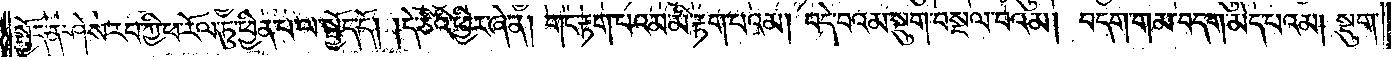སྤྱོད་ན་ཤེས་རབ་ཀྱི་ཕ་རོལ་ཏུ་ཕྱིན་པ་ལ་སྤྱོད་དོ། །དེ་ཅིའི་ཕྱིར་ཞེ་ན། གང་རྟག་པའམ་མི་རྟག་པའམ། བདེ་བའམ་སྡུག་བསྔལ་བའམ། བདག་གམ་བདག་མེད་པའམ། སྡུག་
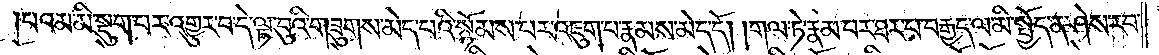པའམ་མི་སྡུག་པར་འགྱུར་བ་དེ་ལྟ་བུའི་གཟུགས་མེད་པའི་སྙོམས་པར་འཇུག་པ་རྣམས་མེད་དོ། །གལ་ཏེ་རྣམ་པར་ཐར་པ་བརྒྱད་ལ་མི་སྤྱོད་ན་ཤེས་རབ་
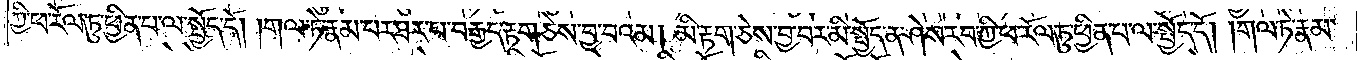ཀྱི་ཕ་རོལ་ཏུ་ཕྱིན་པ་ལ་སྤྱོད་དོ། །གལ་ཏེ་རྣམ་པར་ཐར་པ་བརྒྱད་རྟག་ཅེས་བྱ་བའམ། མི་རྟག་ཅེས་བྱ་བར་མི་སྤྱོད་ན་ཤེས་རབ་ཀྱི་ཕ་རོལ་ཏུ་ཕྱིན་པ་ལ་སྤྱོད་དོ། །གལ་ཏེ་རྣམ་
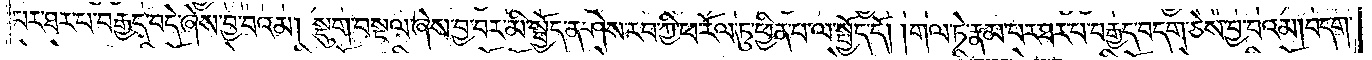པར་ཐར་པ་བརྒྱད་བདེ་ཞེས་བྱ་བའམ། སྡུག་བསྔལ་ཞེས་བྱ་བར་མི་སྤྱོད་ན་ཤེས་རབ་ཀྱི་ཕ་རོལ་ཏུ་ཕྱིན་པ་ལ་སྤྱོད་དོ། །གལ་ཏེ་རྣམ་པར་ཐར་པ་བརྒྱད་བདག་ཅེས་བྱ་བའམ། བདག་
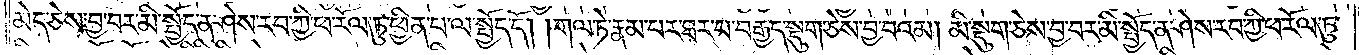མེད་ཅེས་བྱ་བར་མི་སྤྱོད་ན་ཤེས་རབ་ཀྱི་ཕ་རོལ་ཏུ་ཕྱིན་པ་ལ་སྤྱོད་དོ། །གལ་ཏེ་རྣམ་པར་ཐར་པ་བརྒྱད་སྡུག་ཅེས་བྱ་བའམ། མི་སྡུག་ཅེས་བྱ་བར་མི་སྤྱོད་ན་ཤེས་རབ་ཀྱི་ཕ་རོལ་ཏུ་
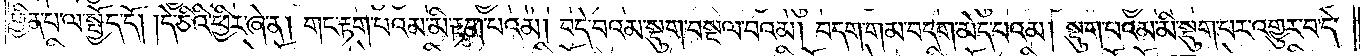ཕྱིན་པ་ལ་སྤྱོད་དོ། །དེ་ཅིའི་ཕྱིར་ཞེ་ན། གང་རྟག་པའམ་མི་རྟག་པའམ། བདེ་བའམ་སྡུག་བསྔལ་བའམ། བདག་གམ་བདག་མེད་པའམ། སྡུག་པའམ་མི་སྡུག་པར་འགྱུར་བ་དེ་
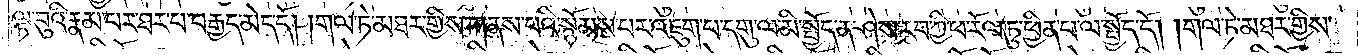ལྟ་བུའི་རྣམ་པར་ཐར་པ་བརྒྱད་མེད་དོ། །གལ་ཏེ་མཐར་གྱིས་གནས་པའི་སྙོམས་པར་འཇུག་པ་དགུ་ལ་མི་སྤྱོད་ན་ཤེས་རབ་ཀྱི་ཕ་རོལ་ཏུ་ཕྱིན་པ་ལ་སྤྱོད་དོ། །གལ་ཏེ་མཐར་གྱིས་
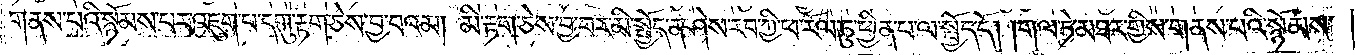གནས་པའི་སྙོམས་པར་འཇུག་པ་དགུ་རྟག་ཅེས་བྱ་བའམ། མི་རྟག་ཅེས་བྱ་བར་མི་སྤྱོད་ན་ཤེས་རབ་ཀྱི་ཕ་རོལ་ཏུ་ཕྱིན་པ་ལ་སྤྱོད་དོ། །གལ་ཏེ་མཐར་གྱིས་གནས་པའི་སྙོམས་
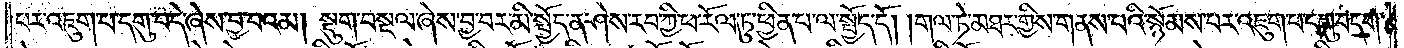པར་འཇུག་པ་དགུ་བདེ་ཞེས་བྱ་བའམ། སྡུག་བསྔལ་ཞེས་བྱ་བར་མི་སྤྱོད་ན་ཤེས་རབ་ཀྱི་ཕ་རོལ་ཏུ་ཕྱིན་པ་ལ་སྤྱོད་དོ། །གལ་ཏེ་མཐར་གྱིས་གནས་པའི་སྙོམས་པར་འཇུག་པ་དགུ་བདག་
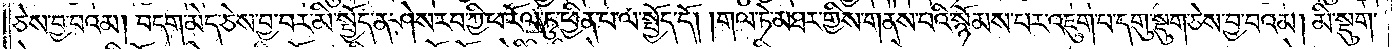ཅེས་བྱ་བའམ། བདག་མེད་ཅེས་བྱ་བར་མི་སྤྱོད་ན་ཤེས་རབ་ཀྱི་ཕ་རོལ་ཏུ་ཕྱིན་པ་ལ་སྤྱོད་དོ། །གལ་ཏེ་མཐར་གྱིས་གནས་པའི་སྙོམས་པར་འཇུག་པ་དགུ་སྡུག་ཅེས་བྱ་བའམ། མི་སྡུག་
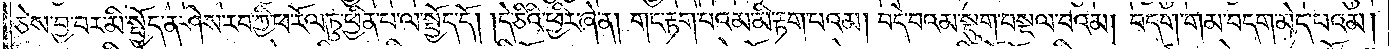ཅེས་བྱ་བར་མི་སྤྱོད་ན་ཤེས་རབ་ཀྱི་ཕ་རོལ་ཏུ་ཕྱིན་པ་ལ་སྤྱོད་དོ། །དེ་ཅིའི་ཕྱིར་ཞེ་ན། གང་རྟག་པའམ་མི་རྟག་པའམ། བདེ་བའམ་སྡུག་བསྔལ་བའམ། བདག་གམ་བདག་མེད་པའམ།
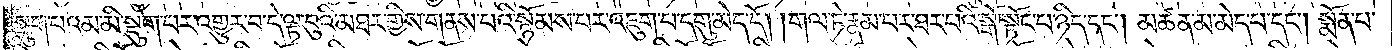སྡུག་པའམ་མི་སྡུག་པར་འགྱུར་བ་དེ་ལྟ་བུའི་མཐར་གྱིས་གནས་པའི་སྙོམས་པར་འཇུག་པ་དགུ་མེད་དོ། །གལ་ཏེ་རྣམ་པར་ཐར་པའི་སྒོ་སྟོང་པ་ཉིད་དང༌། མཚན་མ་མེད་པ་དང༌། སྨོན་པ་
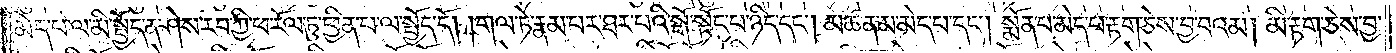མེད་པ་ལ་མི་སྤྱོད་ན་ཤེས་རབ་ཀྱི་ཕ་རོལ་ཏུ་ཕྱིན་པ་ལ་སྤྱོད་དོ། །གལ་ཏེ་རྣམ་པར་ཐར་པའི་སྒོ་སྟོང་པ་ཉིད་དང༌། མཚན་མ་མེད་པ་དང༌། སྨོན་པ་མེད་པ་རྟག་ཅེས་བྱ་བའམ། མི་རྟག་ཅེས་བྱ་
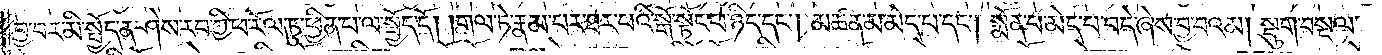བྱ་བར་མི་སྤྱོད་ན་ཤེས་རབ་ཀྱི་ཕ་རོལ་ཏུ་ཕྱིན་པ་ལ་སྤྱོད་དོ། །གལ་ཏེ་རྣམ་པར་ཐར་པའི་སྒོ་སྟོང་པ་ཉིད་དང༌། མཚན་མ་མེད་པ་དང༌། སྨོན་པ་མེད་པ་བདེ་ཞེས་བྱ་བའམ། སྡུག་བསྔལ་
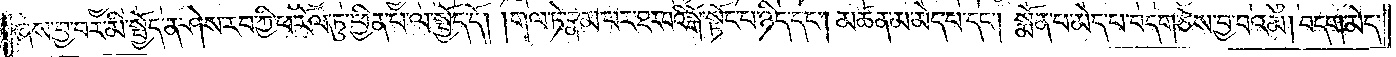ཞེས་བྱ་བར་མི་སྤྱོད་ན་ཤེས་རབ་ཀྱི་ཕ་རོལ་ཏུ་ཕྱིན་པ་ལ་སྤྱོད་དོ། །གལ་ཏེ་རྣམ་པར་ཐར་པའི་སྒོ་སྟོང་པ་ཉིད་དང༌། མཚན་མ་མེད་པ་དང༌། སྨོན་པ་མེད་པ་བདག་ཅེས་བྱ་བའམ། བདག་མེད་
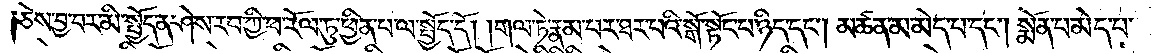ཅེས་བྱ་བར་མི་སྤྱོད་ན་ཤེས་རབ་ཀྱི་ཕ་རོལ་ཏུ་ཕྱིན་པ་ལ་སྤྱོད་དོ། །གལ་ཏེ་རྣམ་པར་ཐར་པའི་སྒོ་སྟོང་པ་ཉིད་དང༌། མཚན་མ་མེད་པ་དང༌། སྨོན་པ་མེད་པ་
